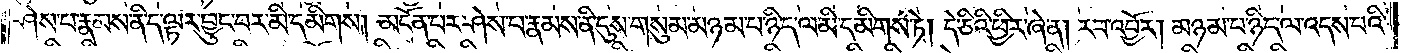ཤེས་པ་རྣམས་ནི་ད་ལྟར་བྱུང་བར་མི་དམིགས། མངོན་པར་ཤེས་པ་རྣམས་ནི་དུས་གསུམ་མཉམ་པ་ཉིད་ལ་མི་དམིགས་ཏེ། དེ་ཅིའི་ཕྱིར་ཞེ་ན། རབ་འབྱོར། མཉམ་པ་ཉིད་ལ་འདས་པའི་
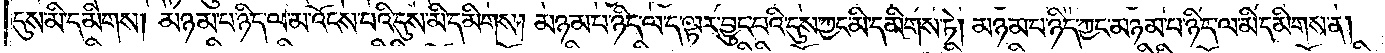དུས་མི་དམིགས། མཉམ་པ་ཉིད་ལ་མ་འོངས་པའི་དུས་མི་དམིགས། མཉམ་པ་ཉིད་ལ་ད་ལྟར་བྱུང་བའི་དུས་ཀྱང་མི་དམིགས་ཏེ། མཉམ་པ་ཉིད་ཀྱང་མཉམ་པ་ཉིད་ལ་མི་དམིགས་ན།
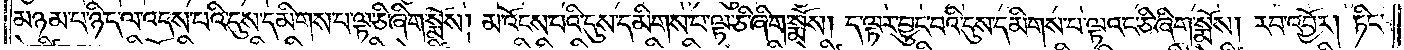མཉམ་པ་ཉིད་ལ་འདས་པའི་དུས་དམིགས་པ་ལྟ་ཅི་ཞིག་སྨོས། མ་འོངས་པའི་དུས་དམིགས་པ་ལྟ་ཅི་ཞིག་སྨོས། ད་ལྟར་བྱུང་བའི་དུས་དམིགས་པ་ལྟའང་ཅི་ཞིག་སྨོས། རབ་འབྱོར། ཏིང་
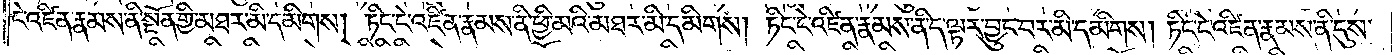ངེ་འཛིན་རྣམས་ནི་སྔོན་གྱི་མཐར་མི་དམིགས། ཏིང་ངེ་འཛིན་རྣམས་ནི་ཕྱི་མའི་མཐར་མི་དམིགས། ཏིང་ངེ་འཛིན་རྣམས་ནི་ད་ལྟར་བྱུང་བར་མི་དམིགས། ཏིང་ངེ་འཛིན་རྣམས་ནི་དུས་
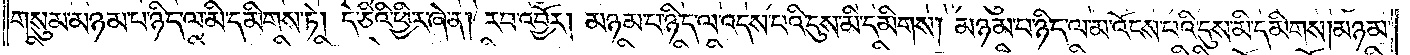གསུམ་མཉམ་པ་ཉིད་ལ་མི་དམིགས་ཏེ། དེ་ཅིའི་ཕྱིར་ཞེ་ན། རབ་འབྱོར། མཉམ་པ་ཉིད་ལ་འདས་པའི་དུས་མི་དམིགས། མཉམ་པ་ཉིད་ལ་མ་འོངས་པའི་དུས་མི་དམིགས། མཉམ་
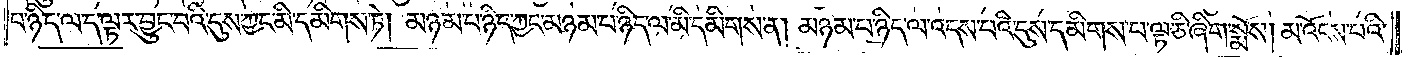པ་ཉིད་ལ་ད་ལྟར་བྱུང་བའི་དུས་ཀྱང་མི་དམིགས་ཏེ། མཉམ་པ་ཉིད་ཀྱང་མཉམ་པ་ཉིད་ལ་མི་དམིགས་ན། མཉམ་པ་ཉིད་ལ་འདས་པའི་དུས་དམིགས་པ་ལྟ་ཅི་ཞིག་སྨོས། མ་འོངས་པའི་
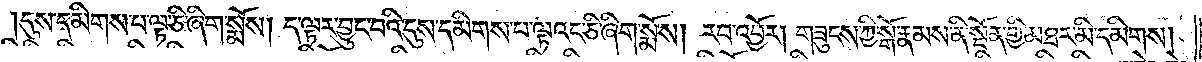དུས་དམིགས་པ་ལྟ་ཅི་ཞིག་སྨོས། ད་ལྟར་བྱུང་བའི་དུས་དམིགས་པ་ལྟའང་ཅི་ཞིག་སྨོས། རབ་འབྱོར། གཟུངས་ཀྱི་སྒོ་རྣམས་ནི་སྔོན་གྱི་མཐར་མི་དམིགས།
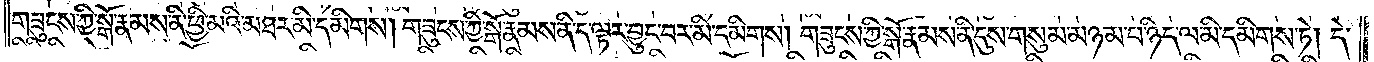གཟུངས་ཀྱི་སྒོ་རྣམས་ནི་ཕྱི་མའི་མཐར་མི་དམིགས། གཟུངས་ཀྱི་སྒོ་རྣམས་ནི་ད་ལྟར་བྱུང་བར་མི་དམིགས། གཟུངས་ཀྱི་སྒོ་རྣམས་ནི་དུས་གསུམ་མཉམ་པ་ཉིད་ལ་མི་དམིགས་ཏེ། དེ་
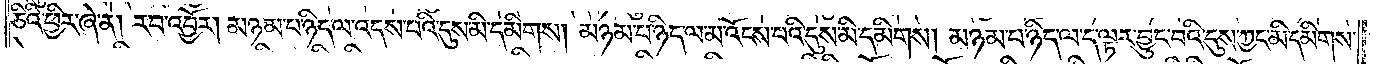ཅིའི་ཕྱིར་ཞེ་ན། རབ་འབྱོར། མཉམ་པ་ཉིད་ལ་འདས་པའི་དུས་མི་དམིགས། མཉམ་པ་ཉིད་ལ་མ་འོངས་པའི་དུས་མི་དམིགས། མཉམ་པ་ཉིད་ལ་ད་ལྟར་བྱུང་བའི་དུས་ཀྱང་མི་དམིགས་
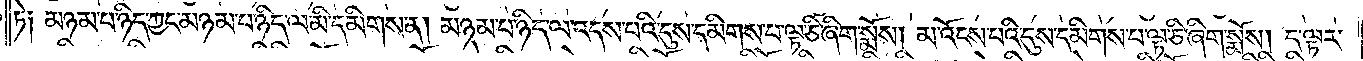ཏེ། མཉམ་པ་ཉིད་ཀྱང་མཉམ་པ་ཉིད་ལ་མི་དམིགས་ན། མཉམ་པ་ཉིད་ལ་འདས་པའི་དུས་དམིགས་པ་ལྟ་ཅི་ཞིག་སྨོས། མ་འོངས་པའི་དུས་དམིགས་པ་ལྟ་ཅི་ཞིག་སྨོས། ད་ལྟར་
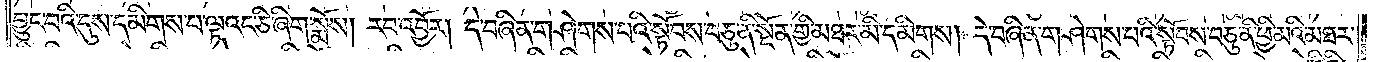བྱུང་བའི་དུས་དམིགས་པ་ལྟའང་ཅི་ཞིག་སྨོས། རབ་འབྱོར། དེ་བཞིན་གཤེགས་པའི་སྟོབས་བཅུ་ནི་སྔོན་གྱི་མཐར་མི་དམིགས། དེ་བཞིན་གཤེགས་པའི་སྟོབས་བཅུ་ནི་ཕྱི་མའི་མཐར་
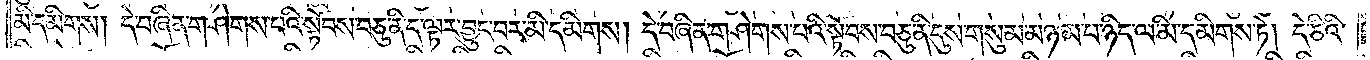མི་དམིགས། དེ་བཞིན་གཤེགས་པའི་སྟོབས་བཅུ་ནི་ད་ལྟར་བྱུང་བར་མི་དམིགས། དེ་བཞིན་གཤེགས་པའི་སྟོབས་བཅུ་ནི་དུས་གསུམ་མཉམ་པ་ཉིད་ལ་མི་དམིགས་ཏེ། དེ་ཅིའི་
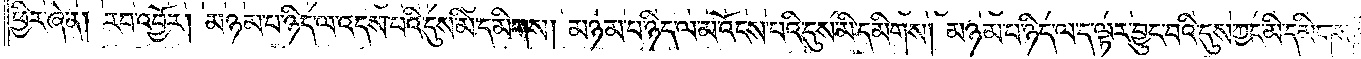ཕྱིར་ཞེ་ན། རབ་འབྱོར། མཉམ་པ་ཉིད་ལ་འདས་པའི་དུས་མི་དམིགས། མཉམ་པ་ཉིད་ལ་མ་འོངས་པའི་དུས་མི་དམིགས། མཉམ་པ་ཉིད་ལ་ད་ལྟར་བྱུང་བའི་དུས་ཀྱང་མི་དམིགས་
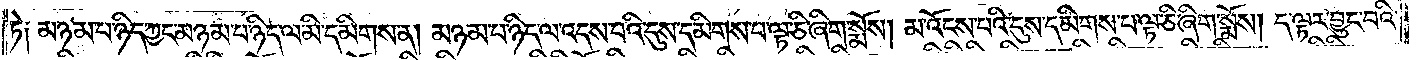ཏེ། མཉམ་པ་ཉིད་ཀྱང་མཉམ་པ་ཉིད་ལ་མི་དམིགས་ན། མཉམ་པ་ཉིད་ལ་འདས་པའི་དུས་དམིགས་པ་ལྟ་ཅི་ཞིག་སྨོས། མ་འོངས་པའི་དུས་དམིགས་པ་ལྟ་ཅི་ཞིག་སྨོས། ད་ལྟར་བྱུང་བའི་
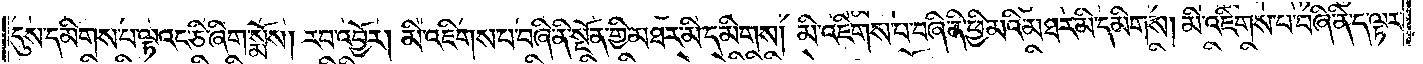དུས་དམིགས་པ་ལྟའང་ཅི་ཞིག་སྨོས། རབ་འབྱོར། མི་འཇིགས་པ་བཞི་ནི་སྔོན་གྱི་མཐར་མི་དམིགས། མི་འཇིགས་པ་བཞི་ནི་ཕྱི་མིའི་མཐར་མི་དམིགས། མི་འཇིགས་པ་བཞི་ནི་ད་ལྟར་
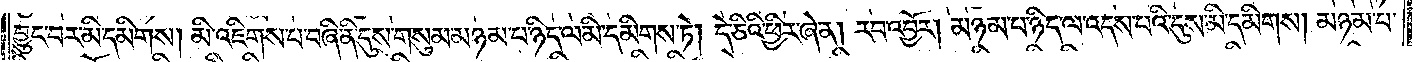བྱུང་བར་མི་དམིགས། མི་འཇིགས་པ་བཞི་ནི་དུས་གསུམ་མཉམ་པ་ཉིད་ལ་མི་དམིགས་ཏེ། དེ་ཅིའི་ཕྱིར་ཞེ་ན། རབ་འབྱོར། མཉམ་པ་ཉིད་ལ་འདས་པའི་དུས་མི་དམིགས། མཉམ་པ་
